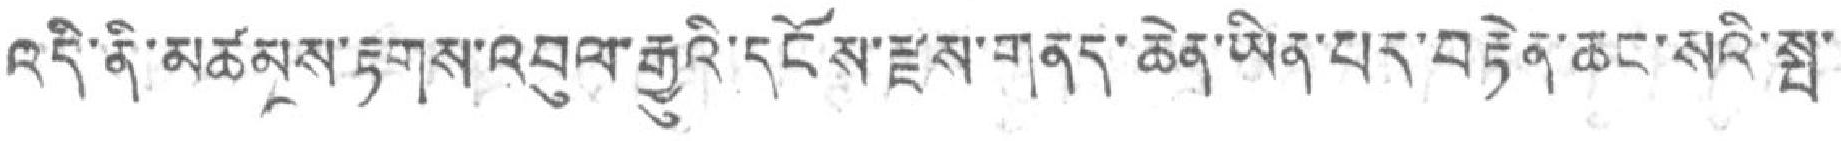འདི་ནི་མཚམས་རྟགས་འབུལ་རྒྱུའི་དངོས་རྫས་གནད་ཆེན་ཡིན་པར་བརྟེན་ཆང་སའི་སྤ་
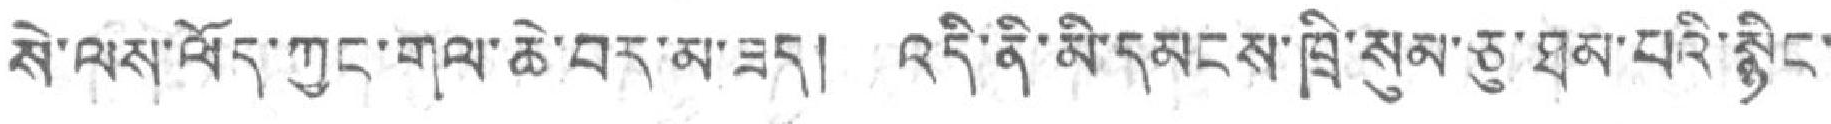སེ་ལས་ལོད་ཀྱང་གལ་ཆེ་བར་མ་ཟད། འདི་ནི་མི་དམངས་ཁྲི་སུམ་ཅུ་ཐམ་པའི་སྙིང་
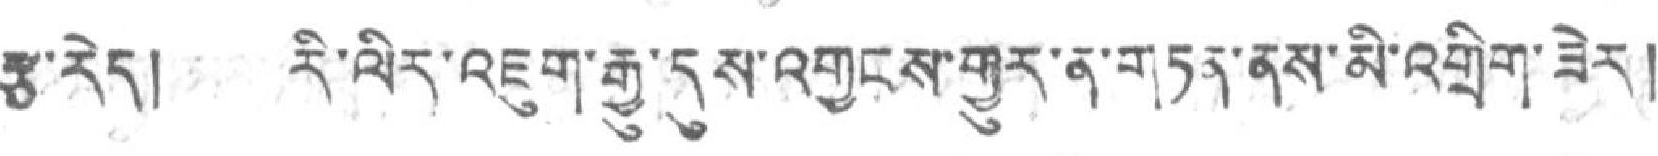རྩ་རད། རི་ལིར་འཇུག་རྒྱུ་དུས་འགྱངས་གྱུར་ན་གཏན་ནས་མི་འགྲིག་ཟེར།
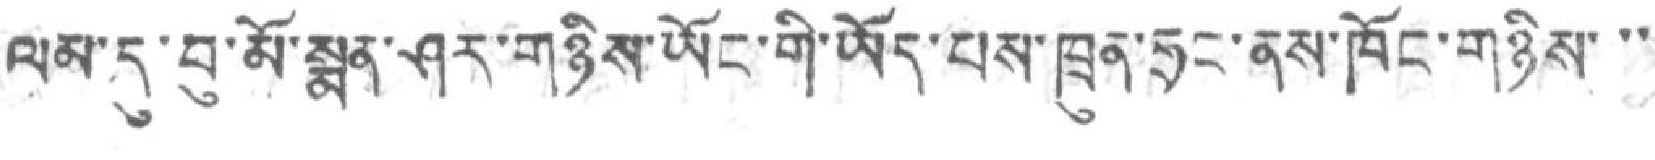ལམ་དུ་བུ་མོ་སྨན་ཤར་གཉིས་ཡོང་གི་ཡོད་པས་ཁྲུན་ཧྲང་ནས་ཁོང་གཉིས་་་
